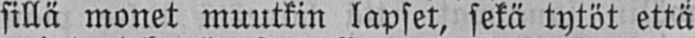sillä monet muutkin lapset, sekä tytöt että
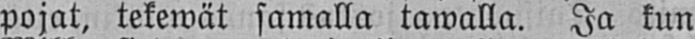pojat, tekewät samalla tawalla. Ja kun
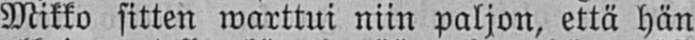Mikko sitten warttui niin paljon, että hän
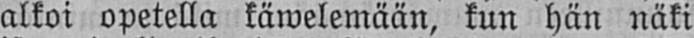alkoi opetella käwelemään, kuu hän näki
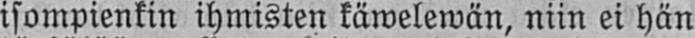isompienkin ihmisten käwelewän, niin ei hän
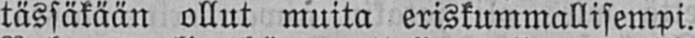tässäkään ollut muita eriskummallisempi.
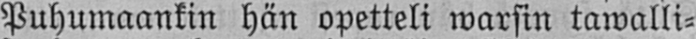Puhumaankin hän opetteli warsin tawalli-
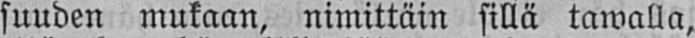suuden mukaan, nimittäin sillä tawalla,
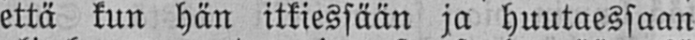että kun hän itkiessään ja huutaessaan
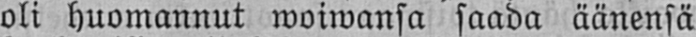oli huomannut woiwansa saada äänensä
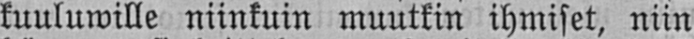kuuluwille niinkuin muutkin ihmiset, niin
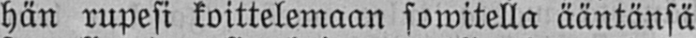hän rupesi koittelemaan sowitella ääntänsä
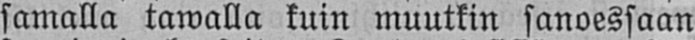samalla tawalla kuin muutkin sanoessaan
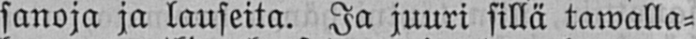sanoja ja lauseita. Ja juuri sillä tawalla-
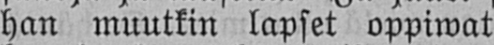han muutkin lapset oppiwat puhumaan,
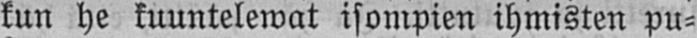kun he kuuntelewat isompien ihmisten pu-
